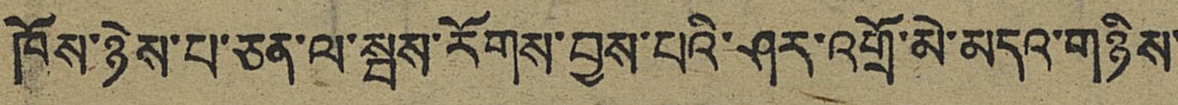ཁོས་ཉེས་པ་ཅན་ལ་སྦས་རོགས་བྱས་པའི་ཤར་འགྲོ་མེ་མདའ་གཉིས་
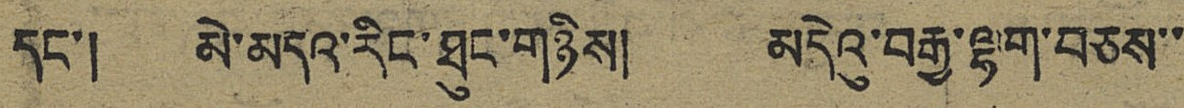དང་། མེ་མདའ་རིང་ཐུང་གཉིས། མདེའུ་བརྒྱ་ལྷག་བཅས་་
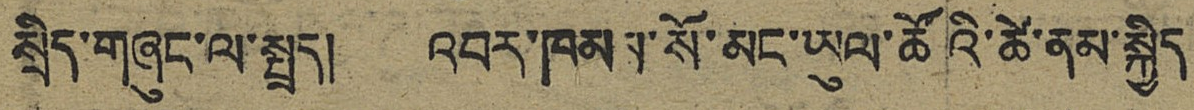སྲིད་གཞུང་ལ་སྤྲད། འབར་ཁམས་སོ་མང་ཡུལ་ཚོའི་ཚེ་ནམ་སྐྱིད
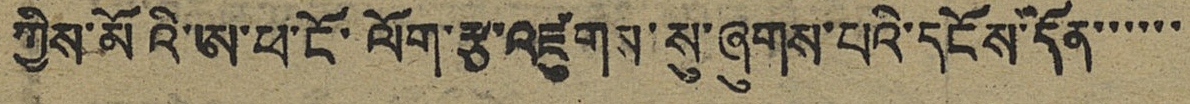ཀྱིས་མོའི་ཨ་ཕ་ངོ་ལོག་རྩ་འཛུགས་སུ་ཞུགས་པའི་དངོས་དོན་་་་་་
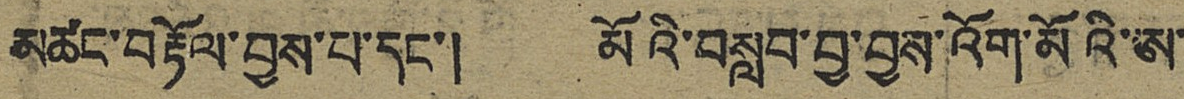མཚང་བརྟོལ་བྱས་པ་དང་། མོའི་བསླབ་བྱ་བྱས་འོག་མོའི་ཨ་
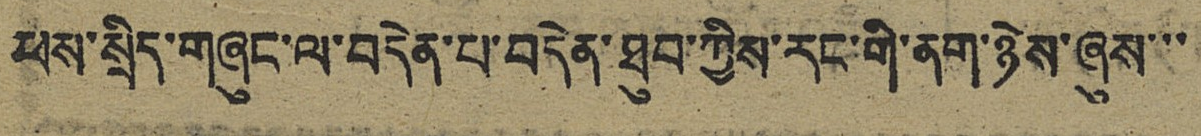ཕས་སྲིད་གཞུང་ལ་བདེན་པ་བདེན་ཐུབ་ཀྱིས་རང་གི་ནག་ཉེས་ཞུས་་་
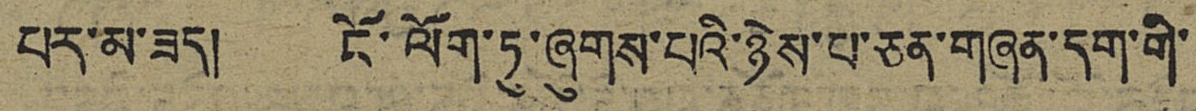པར་མ་ཟད། ངོ་ལོག་ཏུ་ཞུགས་པའི་ཉེས་པ་ཅན་གཞན་དག་གི་
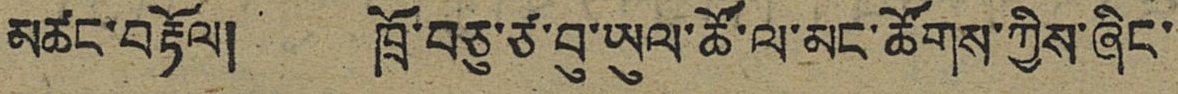མཚང་བརྟོལ། ཁྲོ་བཅུ་ཙ་བུ་ཡུལ་ཚོ་ལ་མང་ཚོགས་ཀྱིས་ཞིང་
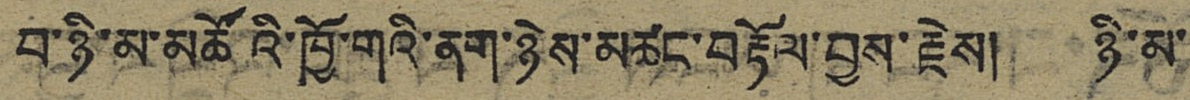བ་ཉི་མ་མཚོའི་ཁྱོ་གའི་ནག་ཉེས་མཚང་བརྟོལ་བྱས་རྗེས། ཉི་མ་
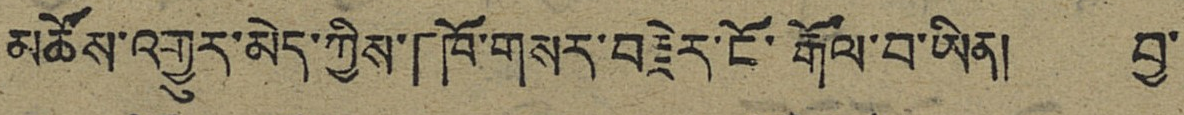མཚོས་འགྱུར་མེད་ཀྱིས་「ཁོ་གསར་བརྗེར་ངོ་རྒོལ་བ་ཡིན། བྱ་
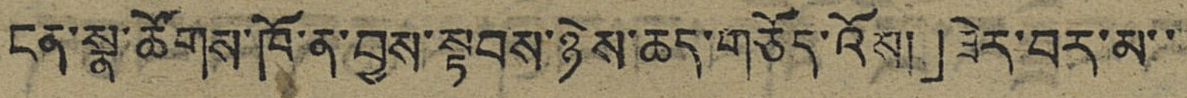ངན་སྣ་ཚོགས་ཁོ་ན་བྱས་སྟབས་ཉེས་ཆད་གཅོད་འོས།」ཟེར་བར་མ་་
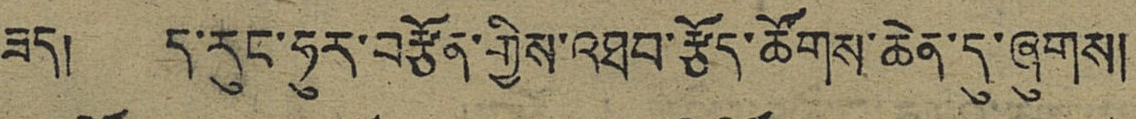ཟད། ད་རུང་ཧུར་བརྩོན་གྱིས་འཐབ་རྩོད་ཚོགས་ཆེན་དུ་ཞུགས།
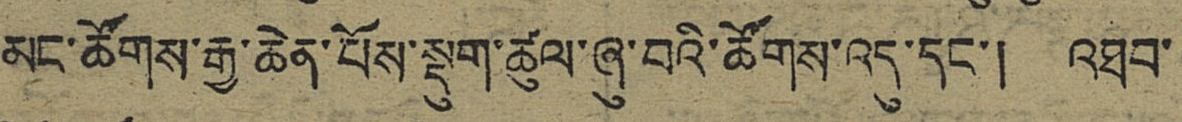མང་ཚོགས་རྒྱ་ཆེན་པོས་སྡུག་ཚུལ་ཞུ་བའི་ཚོགས་འདུ་དང་། འཐབ་
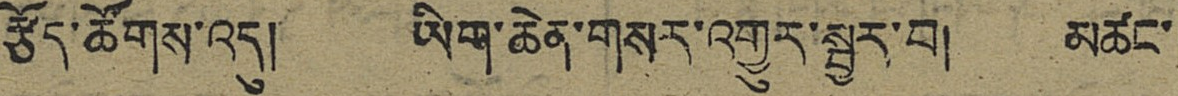རྩོད་ཚོགས་འདུ། ཡིག་ཆེན་གསར་འགྱུར་སྦྱར་བ། མཚང་
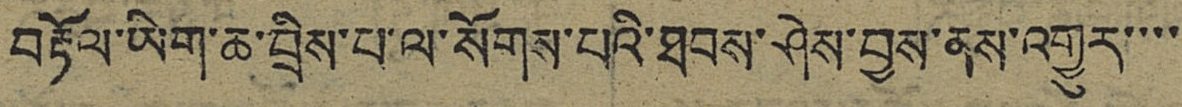བརྟོལ་ཡིག་ཆ་བྲིས་པ་ལ་སོགས་པའི་ཐབས་ཤེས་བྱས་ནས་འགྱུར་་་་
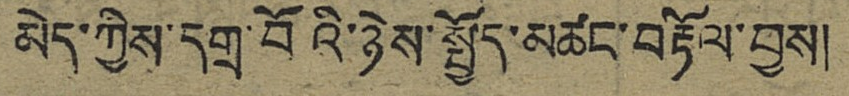མེད་ཀྱིས་དགྲ་བོའི་ཉེས་སྤྱོད་མཚང་བརྟོལ་བྱས།
